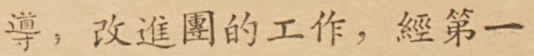導，改進團的工作，經第一
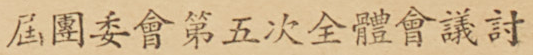屆團委會第五次全體會議討
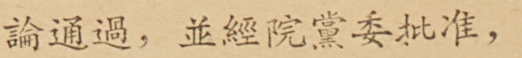論通過，並經院黨委批准，
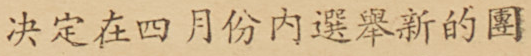決定在四月份內選舉新的團
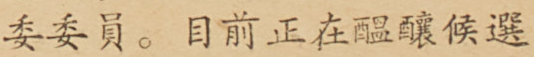委委員。目前正在醞釀候選
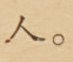人。
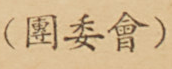（團委會）
